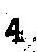4
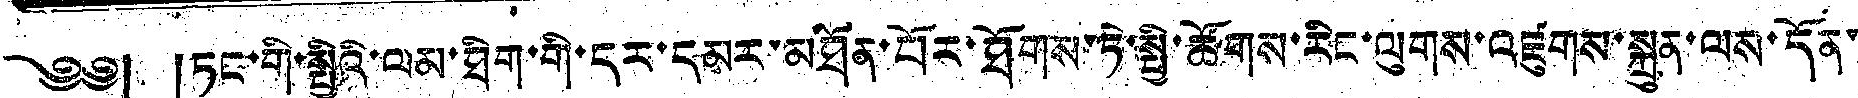༄༅། །ཏང་གི་སྤྱིའི་ལམ་ཐིག་གི་དར་དམར་མཐོན་པོར་ཐོགས་ཏེ་སྤྱི་ཚོགས་རིང་ལུགས་འཛུགས་སྐྲུན་ལས་དོན་
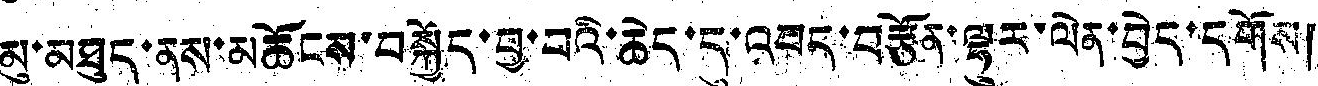མུ་མཐུད་ནས་མཆོངས་བསྐྱོད་བྱ་བའི་ཆེད་དུ་འབད་བརྩོན་ལྷུར་ལེན་བྱེད་དགོས།
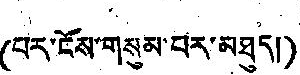(པར་ངོས་གསུམ་པར་མཐུད།)
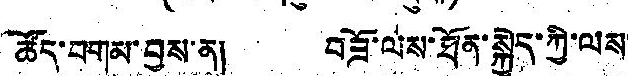ཚོད་བགམ་བྱས་ན། བཟོ་ལས་ཐོན་སྐྱེད་ཀྱི་ལས་
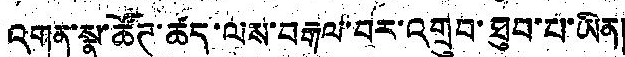འགན་སྣ་ཚོཊ་ཚད་ལས་བརྒལ་བར་འགྲུབ་ཐུབ་པ་ཡིན།
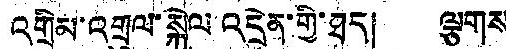འགྲིམ་འགྲུལ་སྐྱེལ་འདྲེན་གྱི་ཐད། ལྕགས
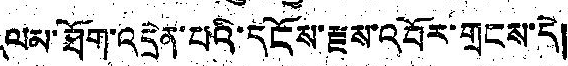ལམ་ཐོག་འདྲེན་པའི་དངོས་རྫས་འབོར་གྲངས་དེ།
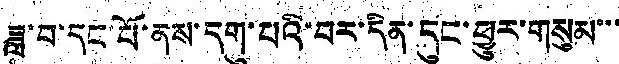ཟླ་བ་དང་པོ་ནས་དགུ་པའི་བར་དིན་དུང་ཕྱུར་གསུམ་་་
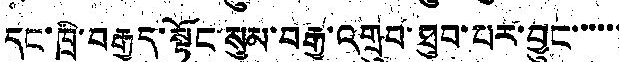དང་ཁྲི་བརྒྱད་སྟོང་སུམ་བརྒྱ་འགྲུབ་ཐུབ་པར་བྱུང་་་་་་
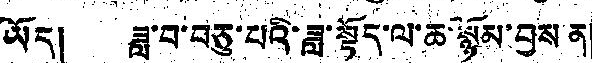ཡོད། ཟླ་བ་བཅུ་པའི་ཟླ་སྟོད་ལ་ཆ་སྙོམ་བྱས་ན།
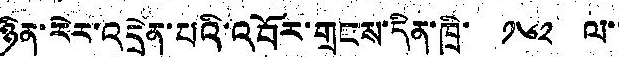ཉིན་རེར་འདྲེན་པའི་འབོར་གྲངས་དིན་ཁྲི་ ༡༦༢ ལ་་
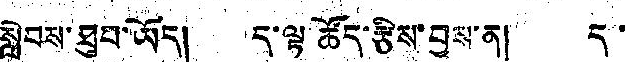སླེབས་ཐུབ་ཡོད། ད་ལྟ་ཚོད་རྩིས་བྱས་ན། ད་
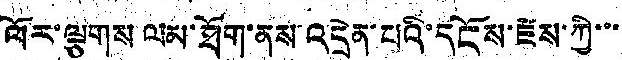ལོར་ལྕགས ལམ་ཐོག་ནས་འདྲེན་པའི་དངོས་རྫས་ཀྱི་་་་
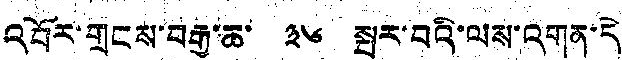འབོར་གྲངས་བརྒྱ་ཆ་ ༣༦ སྦར་བའི་ལས་འགན་དེ་
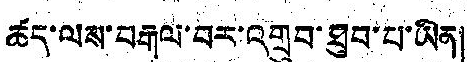ཚད་ལས་བརྒལ་བར་འགྲུབ་ཐུབ་པ་ཡིན།
